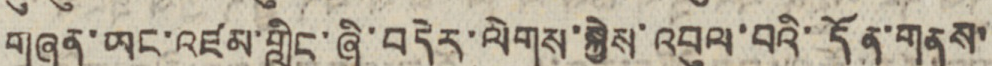གཞན་ཡང་འཛམ་གླིང་ཞི་བདེར་ལེགས་སྐྱེས་འབུལ་བའི་དོན་གནས་་
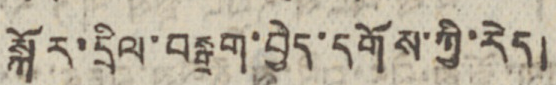སྐོར་དྲིལ་བསྒྲག་བྱེད་དགོས་ཀྱི་རེད།
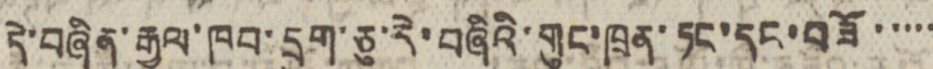དེ་བཞིན་རྒྱལ་ཁབ་དྲུག་ཅུ་རེ་བཞིའི་གུང་ཁྲན་ཏང་དང་བཟོ་་་་་
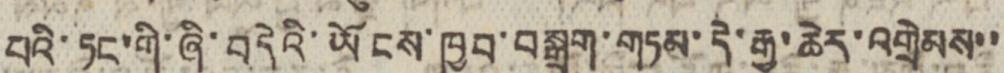པའི་ཏང་གི་ཞི་བདེའི་ཡོངས་ཁྱབ་བསྒྲག་གཏམ་དེ་རྒྱ་ཆེར་འགྲེམས་་
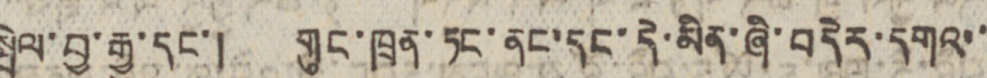སྦེལ་བྱ་རྒྱུ་དང་། གུང་ཁྲན་ཏང་ནང་དང་དེ་མིན་ཞི་བདེར་དགའ་་
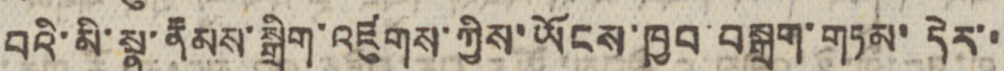བའི་མི་སྣ་རྣམས་སྒྲིག་འཛུགས་ཀྱིས་ཡོངས་ཁྱབ་བསྒྲག་གཏམ་དེར་་
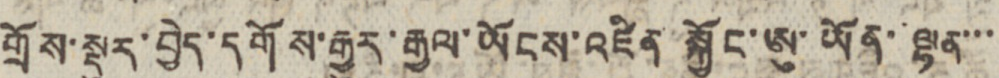གྲོས་སྡུར་བྱེད་དགོས་རྒྱུར་རྒྱལ་ཡོངས་འཛིན་སྐྱོང་ཨུ་ཡོན་ལྷན་་་
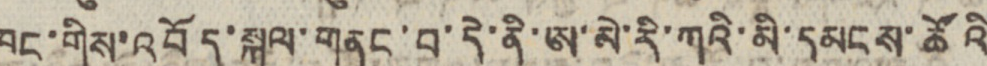ཁང་གིས་འབོད་སྐུལ་གནང་བ་དེ་ནི་ཨ་མེ་རི་ཀའི་མི་དམངས་ཚོའི
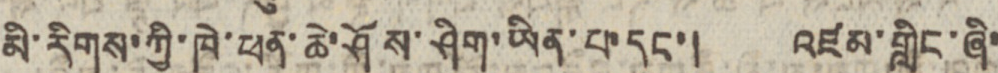མི་རིགས་ཀྱི་ཁེ་ཕན་ཆེ་ཤོས་ཤིག་ཡིན་པ་དང་། འཛམ་གླིང་ཞི་
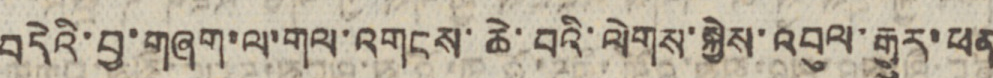བདེའི་བྱ་གཞག་ལ་གལ་འགངས་ཆེ་བའི་ལེགས་སྐྱེས་འབུལ་རྒྱུར་ཕན
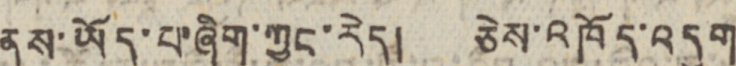ནུས་ཡོད་པ་ཞིག་ཀྱང་རེད། ཅེས་འཁོད་འདུག
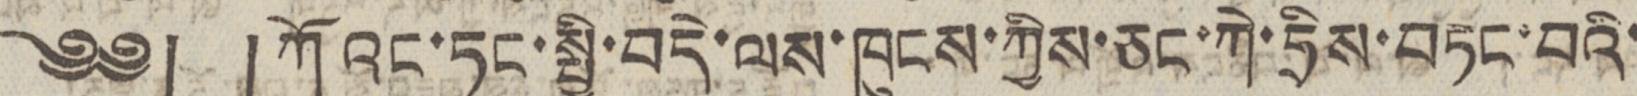༄༅། །ཀོའང་ཏུང་སྤྱི་བདེ་ལས་ཁུངས་ཀྱིས་ཅང་ཀེ་ཧྲིས་བཏང་བའི་
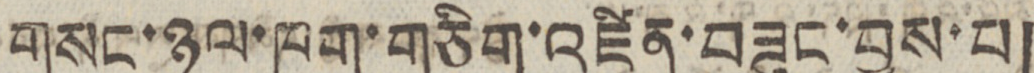གསང་ཉུལ་ཁག་གཅིག་འཛིན་བཟུང་བྱས་པ།
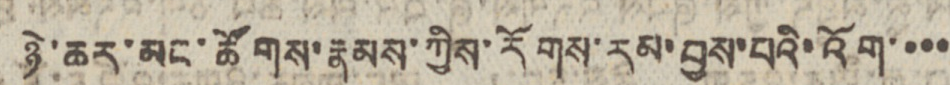ཉེ་ཆར་མང་ཚོགས་རྣམས་ཀྱིས་རོགས་རམ་བྱས་པའི་འོག་་་་
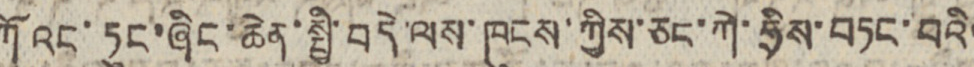ཀོའང་ཏུང་ཞིང་ཆེན་སྤྱི་བདེ་ལས་ཁུངས་ཀྱིས་ཅང་ཀེ་ཧྲིས་བཏང་བའི་
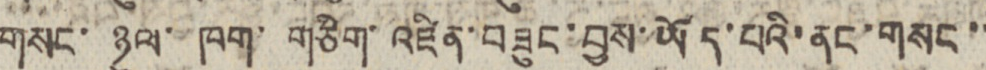གསང་ ཉུལ་ ཁག་ གཅིག་ འཛིན་བཟུང་བྱས་ཡོད་པའི་ནང་གསང་་
